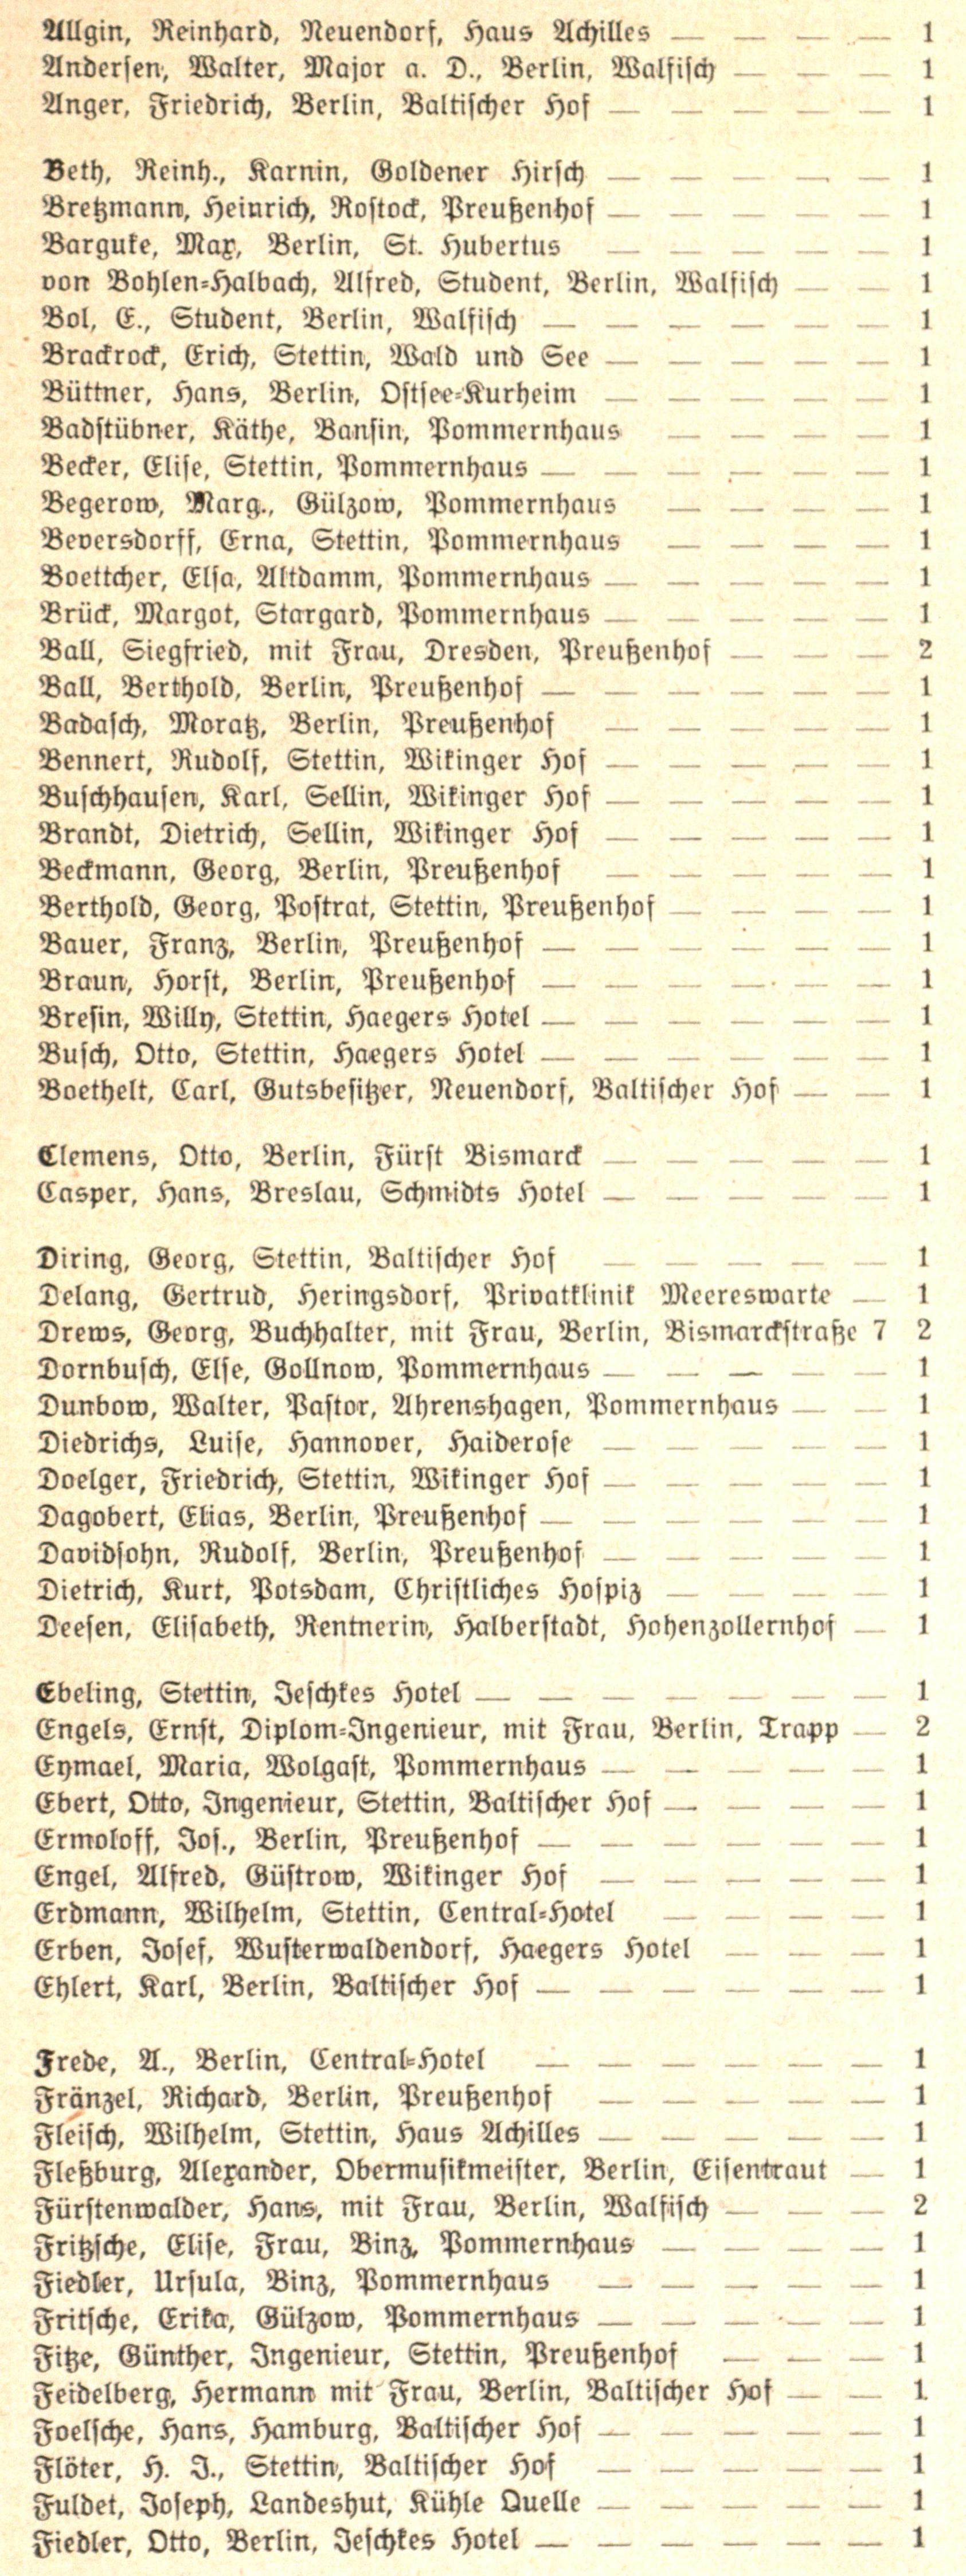Allgin, Reinhard, Neuendorf, Haus Achilles | 1
Andersen, Walter, Major a. D., Berlin, Walfisch | 1
Anger, Friedrich, Berlin, Baltischer Hof | 1
Beth, Reinh., Karnin, Goldener Hirsch | 1
Bretzmann, Heinrich, Rostock, Preußenhof | 1
Barguke, Max, Berlin, St. Hubertus | 1
von Bohlen=Halbach, Alfred, Student, Berlin, Walfisch | 1
Bol, E., Student, Berlin, Walfisch | 1
Brackrock, Erich, Stettin, Wald und See | 1
Büttner, Hans, Berlin, Ostsee=Kurheim | 1
Badstübner, Käthe, Bansin, Pommernhaus | 1
Becker, Elise, Stettin, Pommernhaus | 1
Begerow, Marg., Gülzow, Pommernhaus | 1
Beversdorff, Erna, Stettin, Pommernhaus | 1
Boettcher, Elsa, Altdamm, Pommernhaus | 1
Brück, Margot, Stargard, Pommernhaus | 1
Ball, Siegfried, mit Frau, Dresden, Preußenhof | 2
Ball, Bertholf, Berlin, Preußenhof | 1
Badasch, Moratz, Berlin, Preußenhof | 1
Bennert, Rudolf, Stettin, Wikinger Hof | 1
Buschhausen, Karl, Sellin, Wikinger Hof | 1
Brandt, Dietrich, Sellin, Wikinger Hof | 1
Beckmann, Georg, Berlin, Preußenhof | 1
Berthold, Georg, Postrat, Stettin, Preußenhof | 1
Bauer, Franz, Berlin, Preußenhof | 1
Braun, Horst, Berlin, Preußenhof | 1
Bresin, Willy, Stettin, Haegers Hotel | 1
Busch, Otto, Stettin, Haegers Hotel | 1
Boethelt, Carl, Gutsbesitzer, Neuendorf, Baltischer Hof | 1
Clemens, Otto, Berlin, Fürst Bismarck | 1
Casper, Hans, Breslau, Schmidts Hotel | 1
Diring, Georg, Stettin, Baltischer Hof | 1
Delang, Gertrud, Heringsdorf, Privatklinik Meereswarte | 1
Drews, Georg, Buchhalter, mit Frau, Berlin, Bismarckstraße 7 | 2
Dornbusch, Else, Gollnow, Pommernhaus | 1
Dunbow, Walter, Pastor, Ahrenshagen, Pommernhaus | 1
Diedrichs, Luise, Hannover, Haiderose | 1
Dolger, Friedrich, Stettin, Wikinker Hof | 1
Dagobert, Elias, Berlin, Preußenhof | 1
Davidsohn, Rudolf, Berlin, Preußenhof | 1
Dietrich, Kurt, Potsdam, Christliches Hospiz | 1
Deesen, Elisabeth, Rentnerin, Halberstadt, Hohenzollernhof | 1
Ebeling, Stettin, Jeschkes Hotel | 1
Engels, Ernst, Diplom=Ingenieur, mit Frau, Berlin, Trapp | 2
Eymael, Maria, Wolgast, Pommernhaus | 1
Ebert, Otto, Ingenieur, Stettin, Baltischer Hof | 1
Ermoloff, Jos., Berlin, Preußenhof | 1
Engel, Alfred, Güstrow, Wikinger Hof | 1
Erdmann, Wilhelm, Stettin, Central=Hotel | 1
Erben, Josef, Musterwaldendorf, Haegers Hotel | 1
Ehlert, Karl, Berlin, Baltischer Hof | 1
Frede, A., Berlin, Central=Hotel | 1
Fränzel, Richard, Berlin, Preußenhof | 1
Fleisch, Wilhelm, Stettin, Haus Achilles | 1
Fleßburg, Alexander, Obermusikmeister, Berlin, Eisentraut | 1
Fürstenwalder, Hans, mit Frau, Berlin, Walfisch | 2
Fritzsche, Elise, Frau, Binz, Pommernhaus | 1
Fiedler, Ursula, Binz, Pommernhaus | 1
Fritsche, Erika, Gülzow, Pommernhaus | 1
Fitze, Günther, Ingenieur, Stettin, Preußenhof | 1
Feidelberg, Hermann mit Frau, Berlin, Baltischer Hof | 1
Folsche, Hans, Hamburg, Baltischer Hof | 1
Flöster, H. I., Stettin, Baltischer Hof | 1
Fuldet, Joseph, Landeshut, Kühle Quelle | 1
Fiedler, Otto, Berlin, Jeschkes Hotel | 1
